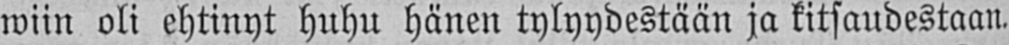wiin oli ehtinyt huhu hänen tylyydestään ja kitsaudestaan.
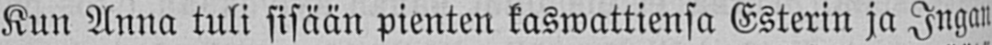Kun Anna tuli sisään pienten kaswattiensa Esterin ja Ingan
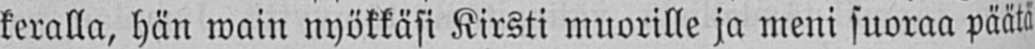kerällä, hän wain nyökkäsi Kirsti muorille ja meni suoraa päätä
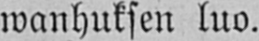wanhuksen luo.
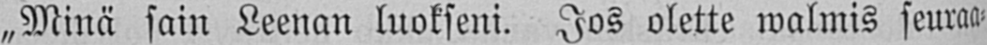„Minä sain Leenan luokseni. Jos olette walmis seuraa-
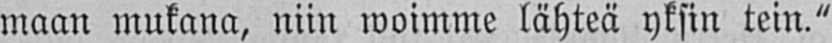maan mukana, niin woimme lähteä yksin tein."
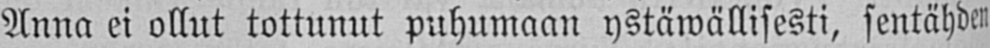Anna ei ollut tottunut puhumaan ystäwällisesti, sentähden
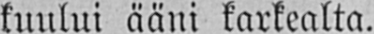kuului ääni karkealta.
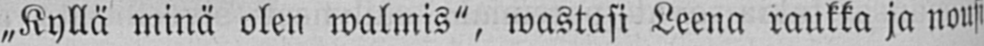„Kyllä minä olen walmis", wastasi Leena raukka ja nousi
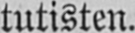tutisten.
